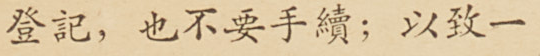登記，也不要手續；以致一
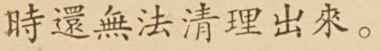時還無法清理出來。
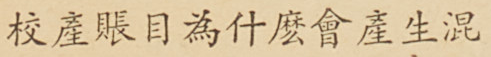校產賬目為什麼會產生混
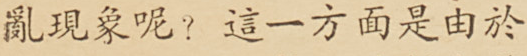亂現象呢？這一方面是由於
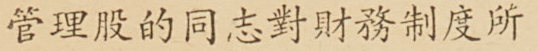管理股的同志對財務制度所
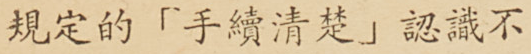規定的「手續清楚」認識不
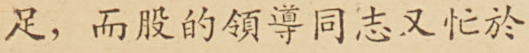足，而股的領導同志又忙於
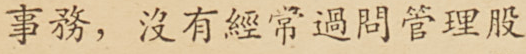事務，沒有經常過問管理股
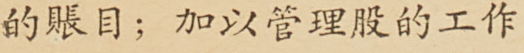的賬目；加以管理股的工作
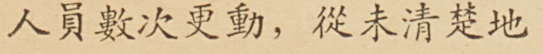人員數次更動，從未清楚地
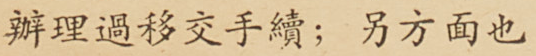辦理過移交手續；另方面也
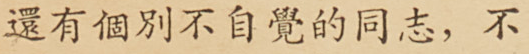還有個別不自覺的同志，不
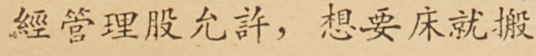經管理股允許，想要床就搬
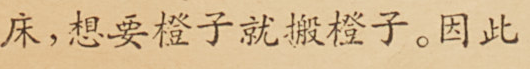床，想要橙子就搬橙子。因此
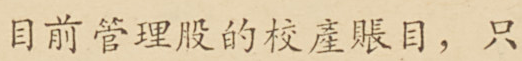目前管理股的校產賬目，只
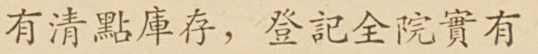有清點庫存，登記全院實有
